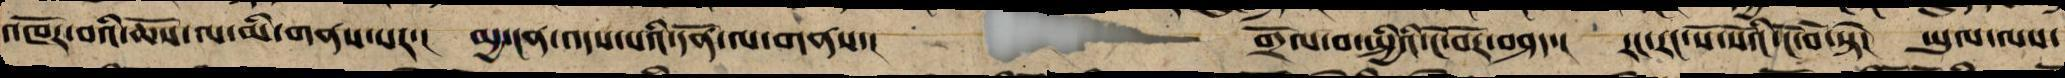འཁོར་བའི་ཆོས་ལ་མི་གནས་པར་། མྱ་ངན་འདས་པའི་དོན་ལ་གནས་། གྲོལ་བ་སྤྱིའི་ངོ་བོར་བཤད་། རང་རང་སོ་སོའི་ངོ་བོར་སྟེ། ཡུལ་ལས་
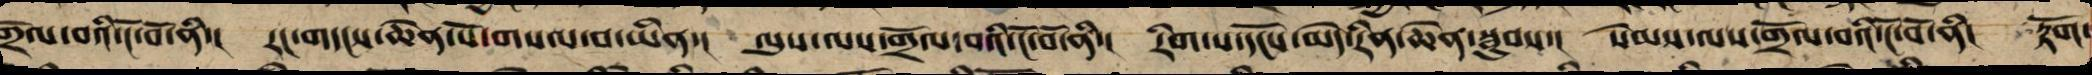གྲོལ་བའི་ངོ་བོ་ནི་། རང་གདངས་ཆེན་པོ་གསལ་བ་ཡིན་། ལུས་ལས་གྲོལ་བའི་ངོ་བོ་ནི་། རིག་པ་དངོས་མེད་རིན་ཆེན་སྦུབས་། སེམས་ལས་གྲོལ་བའི་ངོ་བོ་ནི། རྟོག་
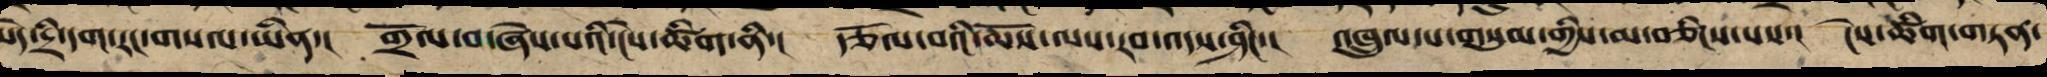མེད་དྲི་དག་རང་གསལ་ཡིན་། གྲོལ་བ་ཞེས་པའི་ངེས་ཚིག་ནི་། རྩོལ་བའི་ཆོས་ལས་རབ་འདས་ཤིང་། འཁྲུལ་པ་གསུམ་གྱིས་མ་བཅིངས་པས་། ངེས་ཚིག་གཏན་
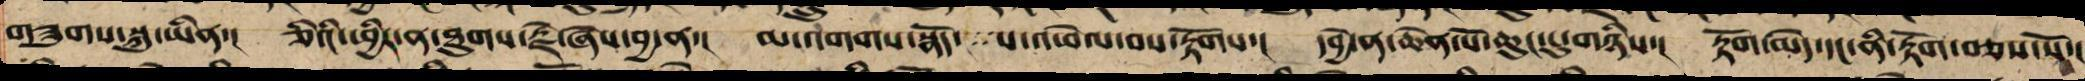གཟུགས་སྐུ་ཡིན་། ཅིའི་ཕྱིར་ན་ཐུགས་རྗེ་ཞེས་བྱ་ན་། མ་འགགས་སྣོད་ པ་འཕེལ་བའི་རྟོགས་། དབྱེ་ན་ཆེན་པོ་ཆུང་ངུ་གཉིས་། རྟོག་མེད་དང་ནི་རྟོག་བཅས་སོ་།
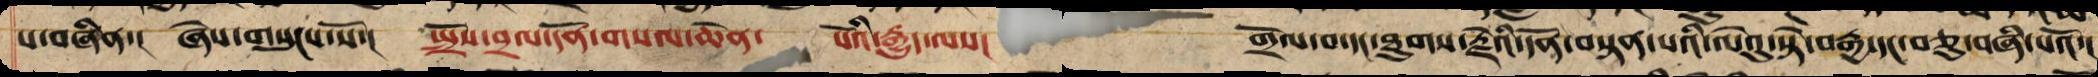པ་བཞིན་། ཞེས་གསུངས་སོ་། སྤྲོས་བྲལ་དོན་གསལ་ཆེན་ པོའི་རྒྱུད་ལས། གྲོལ་བ་དང་ཐུགས་རྗེའི་དོན་བསྟན་པའི་ལེའུ་སྟེ་བརྒྱ་དང་བཅུ་བཞི་པའོ་།།
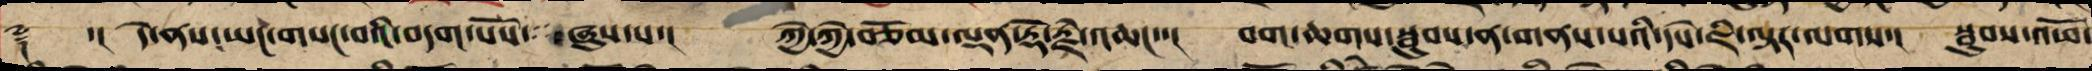༈ ་། དེ་ནས་ཡང་གསང་བའི་བདག་པོས་་་ ཞུས་པ་། ཀྱེ་ཀྱེ་བཅོམ་ལྡན་རྡོ་རྗེ་འཆང་་། བག་ཆགས་སྦུབས་ན་གནས་པའི་དཔེ་ཇི་ལྟར་ལགས་། སྦུབས་འཕོ་
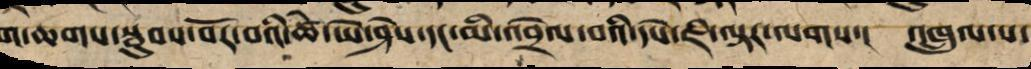ག་ཆགས་སྦུབས་བོར་བའི་ཚེ་ཡེ་ཤེས་དང་མི་འབྲལ་བའི་དཔེ་ཇི་ལྟར་ལགས་། འཁྲུལ་པ་
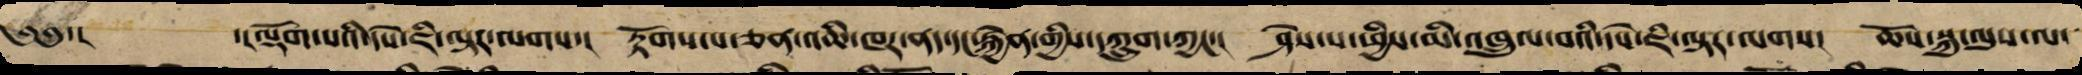༄༅་། ་།ལྡོག་པའི་དཔེ་ཇི་ལྟར་ལགས་། རྟོགས་པ་ཅན་འཆི་ཁར་ནད་དང་རྐྱེན་གྱིས་དཀྲུག་ཀྱང་། ཤེས་པ་ཕྱིས་མི་འཁྲུལ་བའི་དཔེ་ཇི་ལྟར་ལགས། ཆོས་སྐུ་ལུས་ལ་
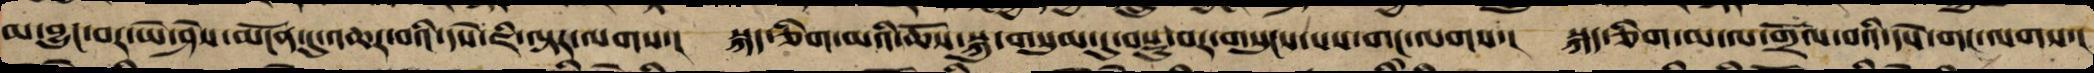མ་བྱུང་བར་ཡེ་ཤེས་མངོན་དུ་འཆར་བའི་དཔེ་ཇི་ལྟར་ལགས་། སྐད་ཅིག་མའི་ཆོས་སྐུ་གསུམ་དུ་བསྡུ་བར་གསུངས་པས་གང་ལགས་། སྐད་ཅིག་མ་ལ་གྲོལ་བའི་དཔེ་གང་ལགས་།
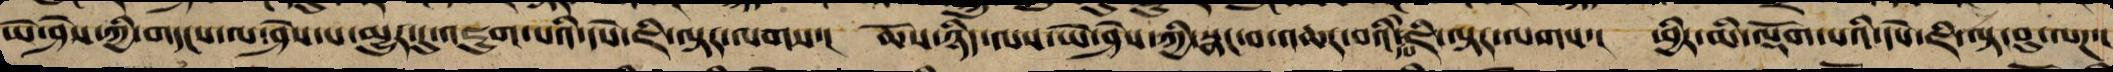ཡེ་ཤེས་ཀྱི་གདངས་ལ་ཤེས་པ་མྱུར་དུ་འཇུག་པའི་དཔེ་ཇི་ལྟར་ལགས་། ཆོས་ཉིད་ལས་ཡེ་ཤེས་ཀྱི་སྣང་བ་འཆར་བའི་ཇི་ལྟར་ལགས་། ཕྱིར་མི་ལྡོག་པའི་དཔེ་ཇི་ལྟ་བུ་ལཌ་།
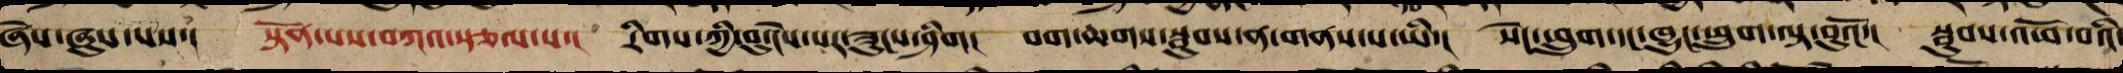ཞེས་ཞུས་པས་། སྟོན་པས་བཀའ་སྩལ་པ་། རིགས་ཀྱི་བུ་ངེས་པར་ཟུངས་ཤིག། བག་ཆགས་སྦུབས་ན་གནས་པ་ཡི་། སེང་ཕྲུག་དང་ཁྱུང་ཕྲུག་ལྟ་བུའོ་། སྦུབས་འཕོ་བའི་
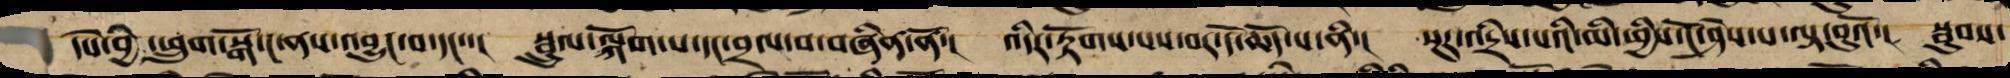དཔེ་བྱེ ་ཕྲུག་སྒོ་ང་ནས་འབྱུང་བ་དང་་། སྦྲུལ་སྐོག་པ་དང་བྲལ་བ་བཞིན་ནོ་། འདིར་རྟོགས་པས་བར་དོ་ཆོད་པ་ནི་། སྔར་འདྲིས་པའི་མི་ཕྱིས་ངོ་ཤེས་པ་ལྟ་བུའོ་། སྦུབས་
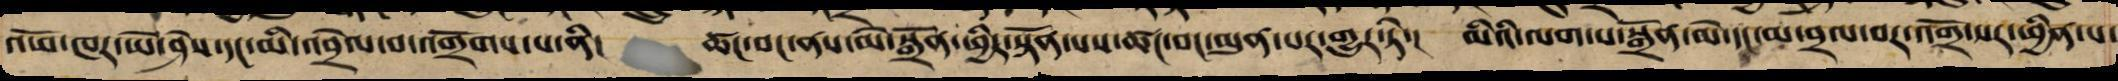འཕོ་ཁར་ཡེ་ཤེས་དང་མི་འབྲལ་བ་འགྲོགས་པ་ནི། ཚང་བང་ནས་མེ་སྒྲོན་ཕྱིར་སྟོན་པས་ཚང་བང་མུན་པར་གྱུར་ཏེ་། མིའི་ལག་པ་སྒྲོན་མེ་དང་མ་བྲལ་བར་འགྲོ་སར་ཕྱིན་པ་
